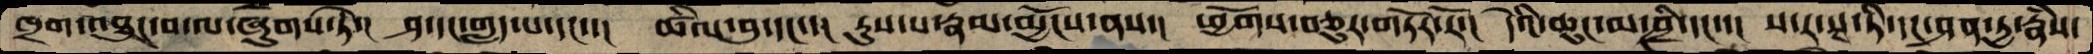ཁྲག་འཐུང་བ་ལ་ཞུགས་ཏེ་།  ཤ་དང་གླད་པ་དང་་།  ཚིལ་བུ་དང་་།  རུས་པ་རྣམ་མྱོངས་ནས་།  ཕྱོགས་བཅུར་གཏོར་རོ་།  དེའི་ཆུང་མ་ཤྲི་དང་་།  ས་ར་སྭ་་ཏི་དང་ཤན་ཏྱ་རྣཾས་
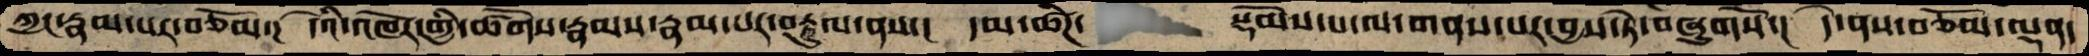ཀྱང་རྣམ་པར་བཅོམ་།  དེའི་འཁོར་གྱི་ཚོགས་རྣམས་རྣམ་པར་བརྟུལ་ནས་།  དམ་ཚིཌ་    སྡོམས་པ་ལ་གནས་པར་བྱས་ཏེ་བཞུགསོ་།  དེ་ནས་བཅོམ་ལྡན་
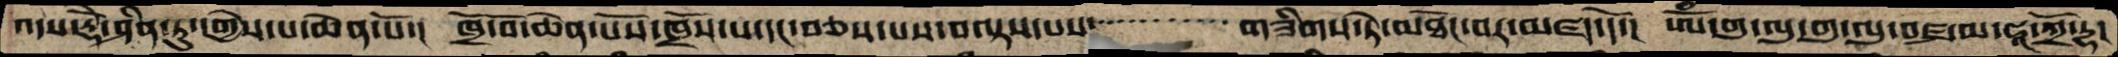འདས་རྡོེ་ཤིན་ཏུ་དགྱེས་པ་ཆེན་པོ་།  ཁྲོ་བོ་ཆེན་པོས་ཁྲོས་པ་དང་བཅས་པས་བལྟས་པས་   གཟིགས་ཏེ་མཐོང་བར་མཛད་དོ་།  ཨོཾ་གུ་ལུ་གུ་ལུ་བཛྲ་མ་ཧཱ་ཀྲོ་དྷ་
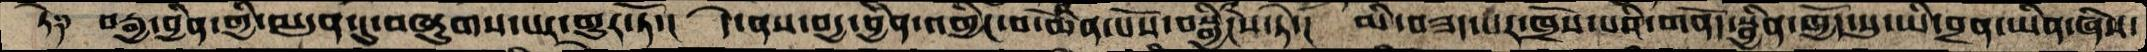ཏེ༑  བརྒྱ་བྱིན་གྱི་མདུན་དུ་བཞུགས་པར་གྱུར་ཏོ་།  དེ་ནས་བདྱ་བྱིན་འགྱིང་བ་ཆེན་པོས་བསྒྱིངས་ཏེ་།  མི་བཟད་པར་ཁྲོས་པའི་གནོད་སྦྱིན་ཁྱོད་སུ་ཡི་བྲན་ཡིན་ཞེས་
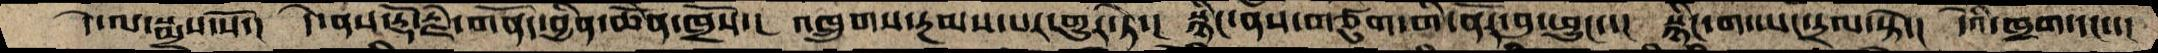དེ་ལ་སྨྲས་སོ་།  དེ་ནས་རྡོ་རྗེ་གནོད་བྱིན་ཆེནོ་ཁྲོས་།  འཁྲུགས་རྔམས་པར་གྱུར་ཏེ་།  སྙིང་ནས་གཙུག་གི་ནོར་བུ་ཕྱུང་་།  སྙིང་ག་ཡང་དྲལ་སྟེ་།  དེའི་ཁྲག་དང་་།
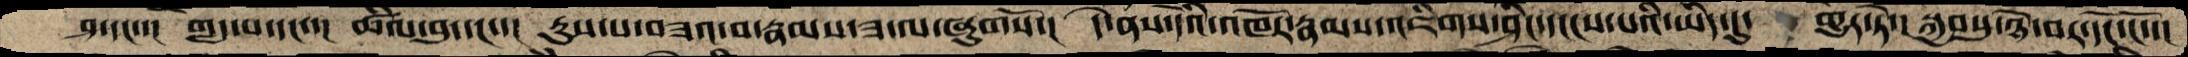ཤ་དང་་།  གླད་པ་དང་་།  ཚིལ་བུ་དང་།  རུས་པ་བཟའ་བ་རྣམས་ཟ་ལ་ཞུགསོ་།  དེ་ནས་དེའི་འཁོར་རྣམས་འཇིགས་ཤིང་དངངས་པའི་ཡིད་དུ་  གྱུར་ཏེ་།  སྐྱབསུ་ཉེ་བར་དོང་ངོ་་།
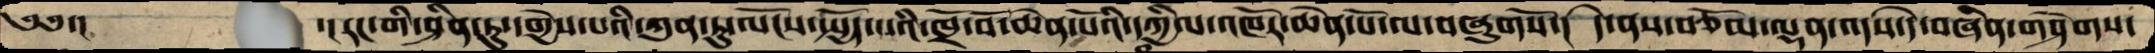༄༅་།     ་།རང་གི་ཤིན་ཏུ་དགྱེས་པའི་ཀུན་ཏུ་ལོངས་སྤྱོད་པའི་ཁྲོ་བོ་ཆེན་པོའི་དཀྱིལ་འཁོར་ཆེན་པོ་ལ་བཞུགསོ་།  དེ་ནས་བཅོམ་ལྡན་འདས་དེ་བཞིན་གཤེགས་
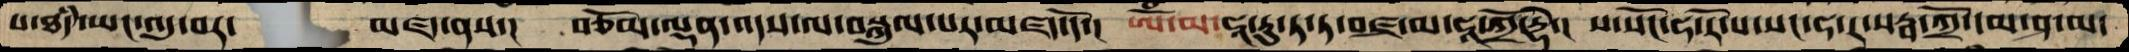པ་ཐདཾ་ཡང་འདུ་བར་   མཛད་ནས་།  བཅོམ་ལྡན་འདས་ལ་བསྐུལ་པར་མཛད་དོ་།  ཨོཾ་མ་ཧཱ་རུ་ཏ་ཏ་བཛྲ་མ་ཧཱ་ཀྲོ་དྷེ་།  པ་སོང་ཧ་རོ་པ་སང་ཧ་ར་སརྦ་ཀྲོ་དམ་ཤ་ལ་
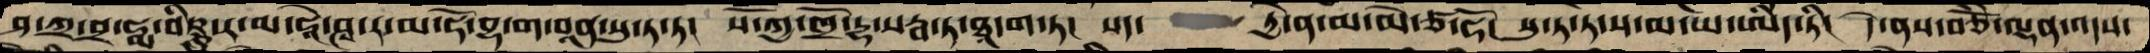ཤ་ཀྲ་བྲ་ཧྨ་བིཥྞ་ར་མ་ཧཱེ་ཤྭ་ར་མ་ཧོ་བྷ་ག་བཱན་སུ་ཏ་ཏ།  སོ་ཀྱ་ཁྲོ་དྷ་སརྦ་ཏ་ཐཱ་ག་ཏ།  སད་  ཏྱེ་ན་མ་མེ་ཙ་ཧོ། སུ་ཏ་ཏ་ས་མ་ཡ་ཨིད་ཏི།  དེ་ནས་བཅོཾ་ལྡན་འདས་
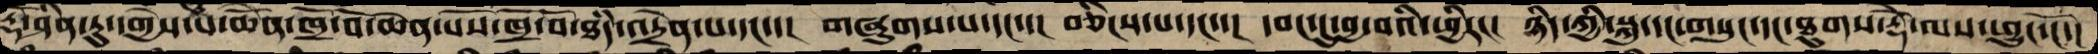རྡོེ་ཤིན་ཏུ་དགྱེས་པ་ཆེནོ་ཁྲོ་བོ་ཆེན་པོས་ཁྲོ་བོ་ཐདཾ་འདྲེན་པ་དང་་།  གཞུགས་པ་དང་་།  བཅིངས་པ་དང་་།  དབང་དུ་བྱ་བའི་ཕྱིར་།  ཉིད་ཀྱི་སྐུ་དང་གསུང་དང་ཐུགས་རྡོེ་ལས་ཕྱུང་ངོ་།
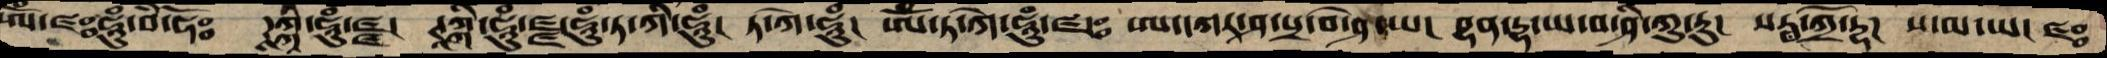ཨོཾ་ཛཿཧཱུཾ་བཾ་ཧོཿ  ཌཱཀྐི་ཧཱུཾ་ཛྫ་  ཊཱཀྐི་ཧཱུཾ་ཛྫ་ཧཱུཾ་ཏ་ཀི་ཧཱུཾ་  ཏ་ཀེ་ཧཱུཾ་ ཨོཾ་ཏ་ཀེ་ཧཱུཾ་ཛཿ ཨ་དཀར་ཤ་སྲ་བེ་ཤ་ཡ།  བྷན་དྷ་ཡ་བ་ཤི་ཀུ་རུ་  སརྦ་ཀྲོ་དྷ།  ས་མ་ཡ། ཛཿ
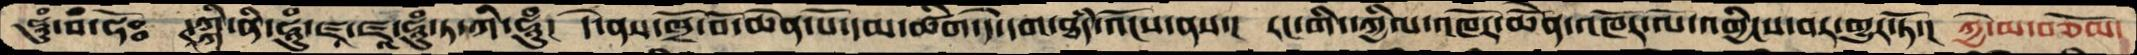ཧཱུཾ་བཾ་ཧོཿ  ཊཱཀྐི་ནི་ཧཱུཾ་ཛཱ་ཛཱ་ཧཱུཾ་ཏ་ཀི་ཧཱུཾ་  དེ་ནས་ཁྲོ་བོ་ཆེན་པོ་དམ་ཚིག་དེ་དག་ཐཾད་འོངས་ནས་།  རང་གི་དཀྱིལ་འཁོར་ཆེནོ་འཁོར་ལོ་འགྱིངས་བར་གྱུར་ཏོ་།  ཀྱེ་མ་བཅོམ་
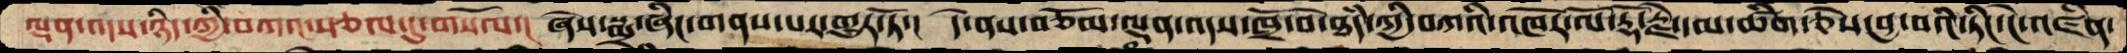ལྡན་འདས་ཉིད་ཀྱི་བཀའ་སྩལ་དུ་གསོལ་།  ཞེས་སྨྲ་ཞིང་གནས་པར་གྱུར་ཏོ་།  དེ་ནས་བཅོམ་ལྡན་འདས་ཁྲོ་བོ་ཐཾད་ཀྱི་བཀའི་འཁོར་ལོ་རྡོ་རྗེ་དམ་ཚིག་ཅེས་བྱ་བའི་ཏིང་ངེ་འཛིན་
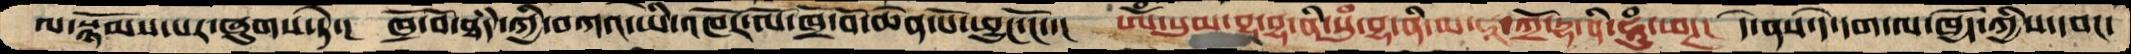ལ་སྙོམས་པར་ཞུགས་ཏེ་།  ཁྲོ་བོ་ཐཾད་ཀྱི་བཀའ་ཡི་འཁོར་ལོ་ཁྲོ་བོ་ཆེན་པོ་ཕྱུང་ངོ་།  ཨོཾ་སུམ་བྷ་བྷ་ནི་སུཾ་བྷ་ནི་མ་ཧཱ་ཀྲོ་དྷ་ནི་ཧཱུཾ་ཕཊ།  དེ་ནས་དེ་དག་ལ་ཁྱོད་ཀྱིས་དབང་
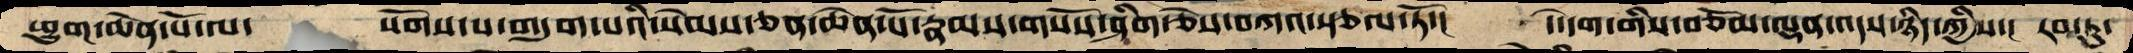ཕྱུག་ཆེན་པོ་ལ་     སོགས་པ་གདུག་པའི་སེམས་ཅན་ཆེན་པོ་རྣམས་གསོས་ཤིག་ཅེས་བཀའ་སྩལ་ཏོ་།  དེ་དག་གིས་བཅོམ་ལྡན་འདས་ཉིད་ཀྱིས་། རབ་ཏུ་
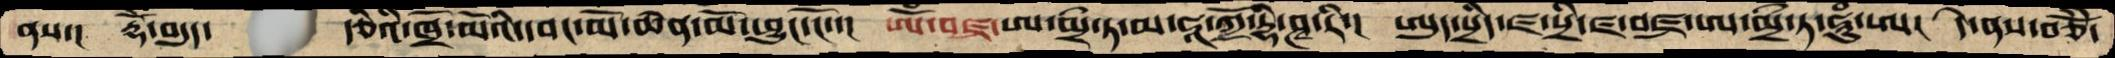ནས་།  རྡོེ་བདུད་    རྩིའི་ཁྲོ་མོའི་དབང་མོ་ཆེན་མོ་ཕྱུང་ངོ་་།  ཨོཾ་བཛྲ་ཨ་མྲྀ་ཏ་མ་ཧཱ་ཀྲོ་ཌྷི་ཤྭ་རི་།  ཨུད་སྲིད་ཛ་སྲི་ཛ་བཛྲ་ཨ་མྲྀ་ཏ་ཧཱུཾ་ཨ།  དེ་ནས་བཅོཾ་
